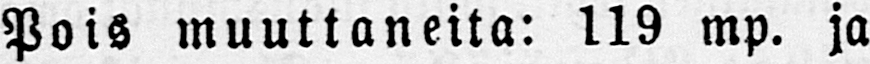Pois muuttaneita: 119 mp. ja
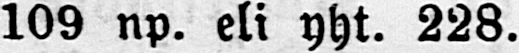109 np. eli yht. 228.
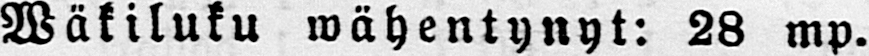Wäkiluku wähentynyt: 28 mp.
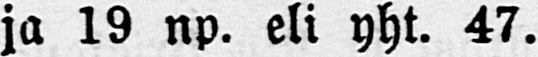ja 19 np. eli yht. 47.
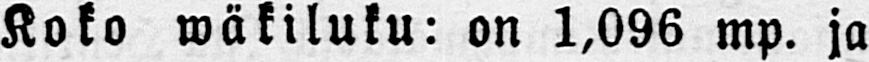Koko mäkiluku: on 1,096 mp. ja
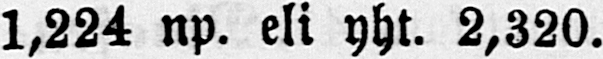1,224 np. eli yht. 2,320.
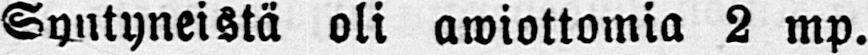Syntyneistä oli armottomia 2 mp.
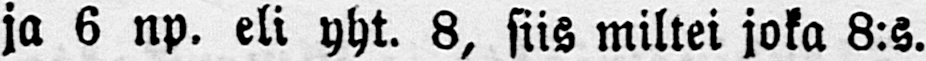ja 6 np. eli yht. 8, siis miltei joka 8:s.
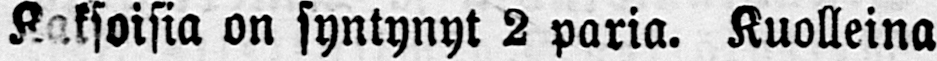Kaksoisia on syntynyt 2 paria. Kuolleina
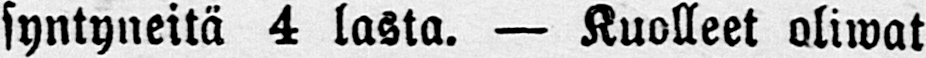syntyneitä 4 lasta. — Kuolleet oliwat
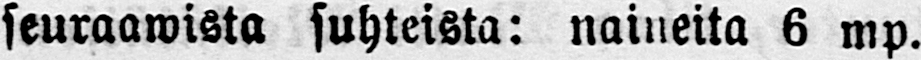seuraawista suhteista: naineita 6 mp.
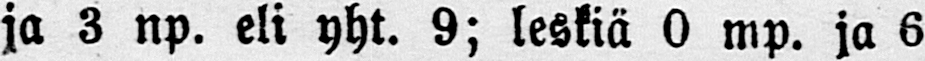ja 3 np. eli yht. 9; leskiä 0 mp. ja 6
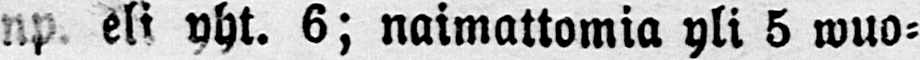np. esi yht. 6; naimattomia yli 5 wuo-
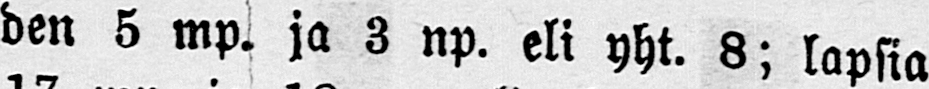den 5 mp. ja 3 np. eli yht. 8; lapsia
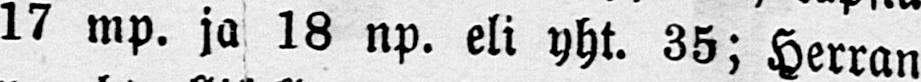17 mp. ja 18 np. eli yht. 35; Herran
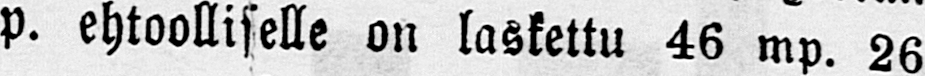P. ehtoolliselle on laskettu 46 mp. 2g
